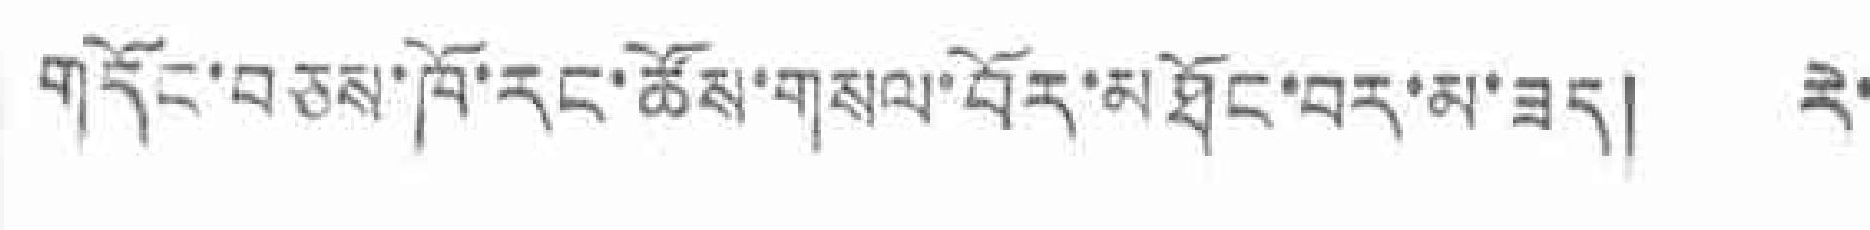གདོང་བཅས་ཁོ་རང་ཚོས་གསལ་བོར་མཐོང་བར་མ་ཟད། རེ་
